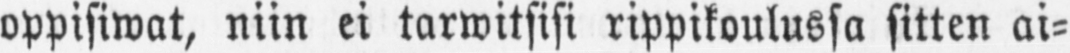oppisiwat, niin ei tarwitsisi rippikoulussa sitten ai-
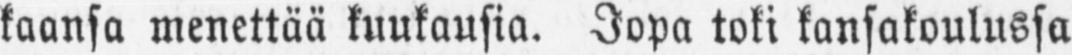kaansa menettää kuukausia. Jopa toki kansakoulussa
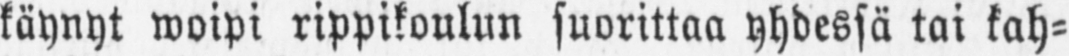käynyt woipi rippikoulun suorittaa yhdessä tai kah-
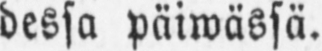dessa päiwässä.
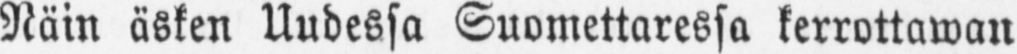Näin äsken Uudessa Suomettaressa kerrottawan
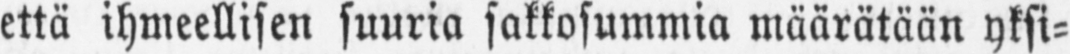että ihmeellisen suuria sakkosummia määrätään yksi-
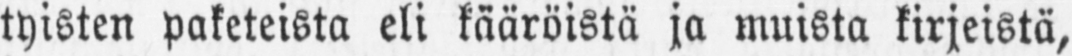tyisten paketeista eli kääröistä ja muista kirjeistä,
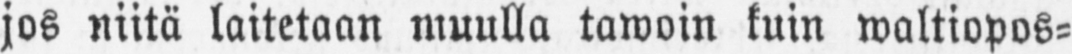jos niitä laitetaan muulla tawoin kuin waltiopos-
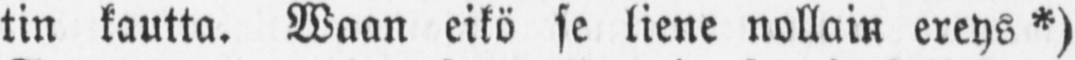tin kautta. Waan eikö se liene nollain ereys *)
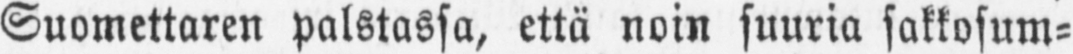Suomettaren palstassa, että noin suuria sakkosum-
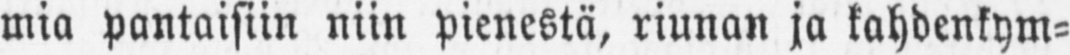mia pantaisiin niin pienestä, riunan ja kahdenkym-
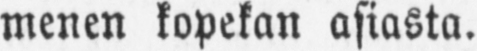menen kopekan asiasta.
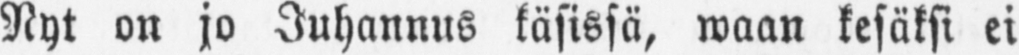Nyt on jo Juhannus käsissä, waan kesäksi ei
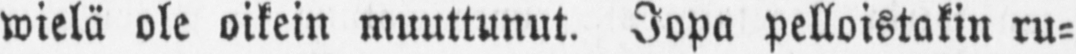wielä ole oikein muuttunut. Jopa pelloistakin ru-
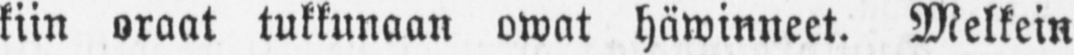kiin oraat tukkunaan owat häwinneet. Melkein
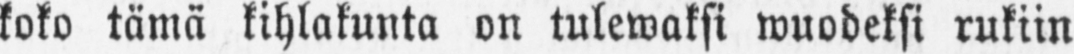koko tämä kihlakunta on tulewaksi wuodeksi rukiin
